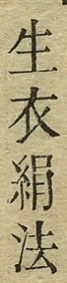生衣絹法
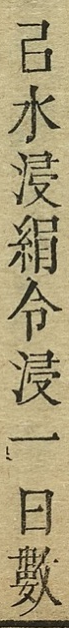以水浸絹令浸一日數
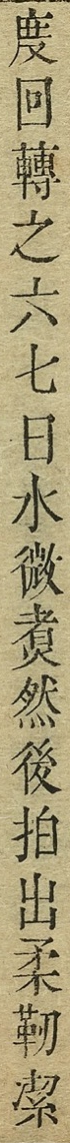度回轉之六七日水微煮然後拍出柔韌潔
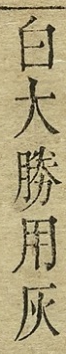白大勝用灰
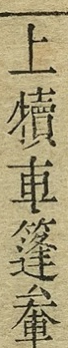上犢車篷軬
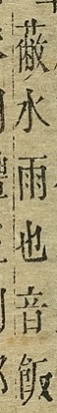蔽水雨也音飯
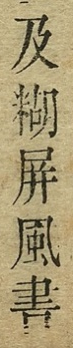及糊屏風書
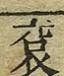袞
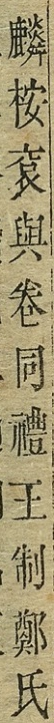麟桉袞與卷同禮王制鄭氏
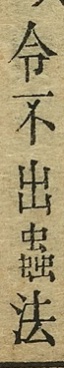令不出蟲法
